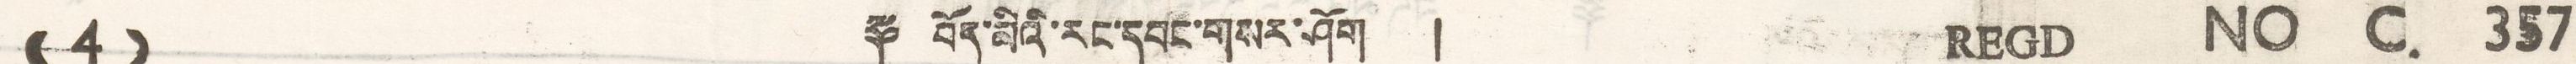(( 4 )) ༈ བོད་མིའི་རང་དབང་གསར་ཤོག ། REGD NO C. 357
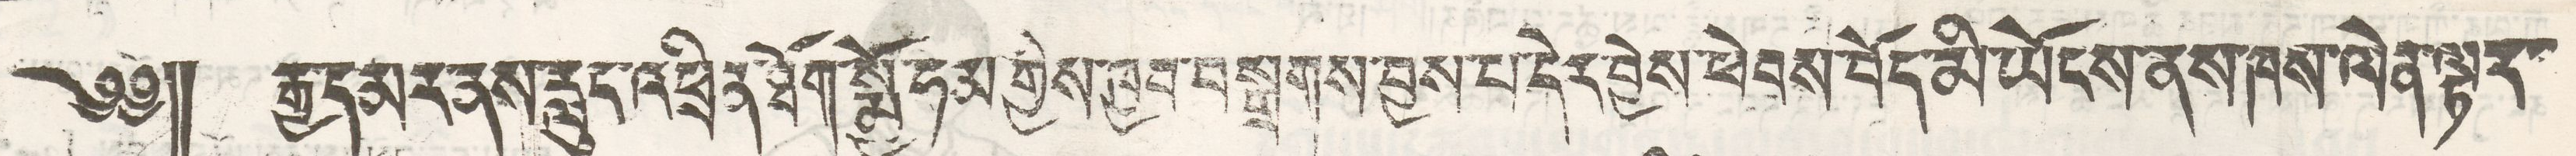༄༅།། རྒྱ་དམར་ནས་རླུང་འཕྲིན་ཐོག་སྨྱོ་ཧམ་གྱེས་ཁྱབ་བསྒྲགས་བྱས་པ་དེར་བྱེས་ཕེབས་བོད་མི་ཡོངས་ནས་ཁས་ལེན་ལྟར་
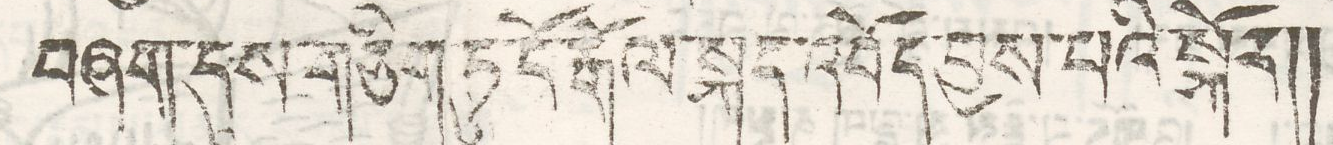བཞག་དུས་གཅིག་ཏུ་ངོ་རྒོལ་སྐད་འབོད་བྱས་པའི་སྐོར།།
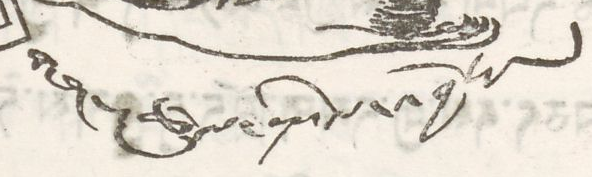གནས་ཚུལ་སྤེལ་འབྱོར།
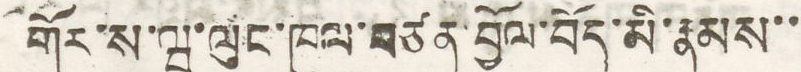གོར་ས་ཝ་ལུང་ཁུལ་བཙན་བྱོལ་བོད་མི་རྣམས་་
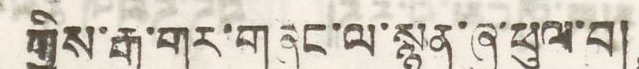གྱིས་རྒྱ་གར་གཞུང་ལ་སྙན་ཞུ་ཕུལ་བ།།
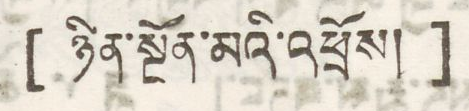[ ཉིན་སྔོན་མའི་འཕྲོས། ]
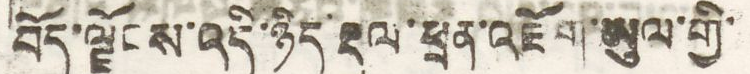བོད་ལྗོངས་འདི་ཉིད་རྡུལ་ཕྲན་འཇོག་ཡུལ་གྱི་
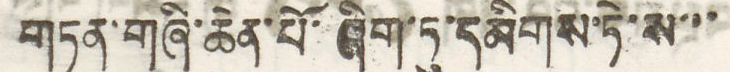གཏན་གཞི་ཆེན་པོ་ཞིག་ཏུ་དམིགས་ཏེ་ས་་་
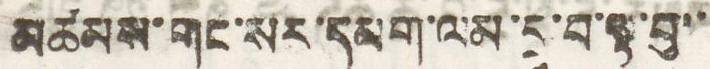མཚམས་གང་སར་དམག་ལམ་དྲུ་བ་ལྟ་བུ་་
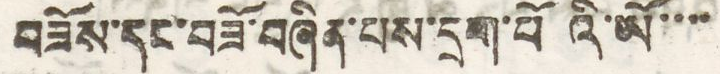བཟོས་དང་བཟོ་བཞིན་པས་དྲག་པོའི་ཡོ་་་་
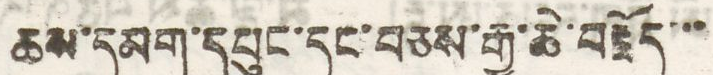ཆས་དམག་དཔུང་དང་བཅས་རྒྱ་ཆེ་བརྗོད་་་
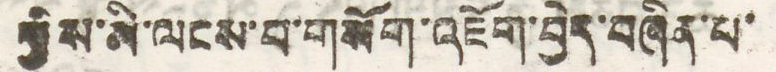ཀྱིས་མི་ལངས་པ་གསོག་འཇོག་བྱེད་བཞིན་པ་
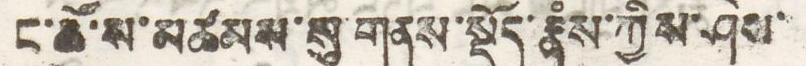ང་ཚོ་ས་མཚམས་སུ་གནས་སྡོད་རྣཾས་ཀྱིས་ཤེས་
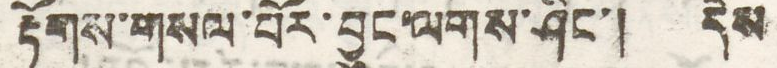རྟོགས་གསལ་པོར་བྱུང་ལགས་ཤིང་། དེས
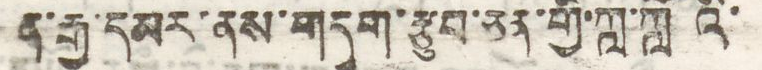ན་རྒྱ་དམར་ནས་གདུག་རྩུབ་ཅན་གྱི་ཀློ་ཀློའི་
